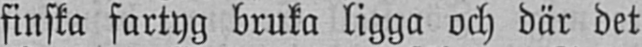finska fartyg bruka ligga och där det
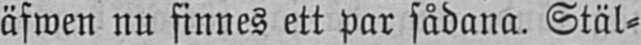äfwen nu finnes ett par sådana. Stäl-
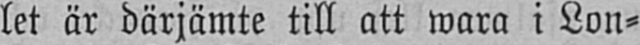let är därjämte till att wara i Lon-
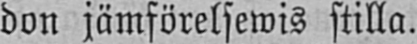don jämförelsewis stilla.
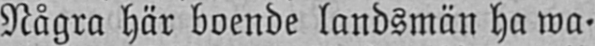Några här boende landsmän ha wa-
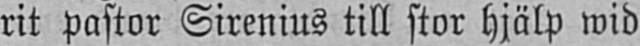rit Pastor Sirenius till stor hjälp wid
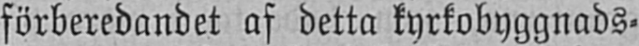förberedandet af detta kyrkobyggnads-
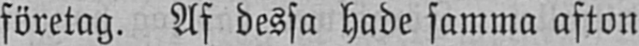företag. Af dessa hade samma afton
